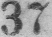37
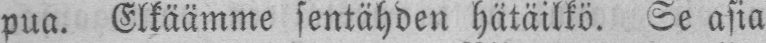pua. Elkäämme sentähden hätäilkö. Se asia
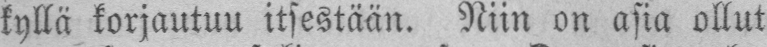kyllä korjautuu itsestään. Niin on asia ollut
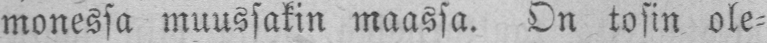monessa muussakin maassa. On tosin ole-
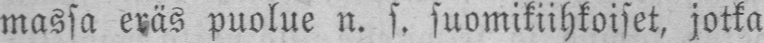massa eräs puolue n. s. suomikiihkoiset, jotka
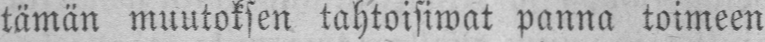tämän muutoksen tahtoisiwat panna toimeen
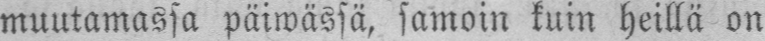muutamassa päiwässä, samoin kuin heillä on
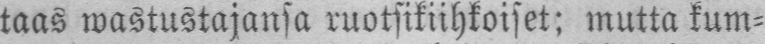taas wastustajansa ruotsikiihkoiset: mutta kum-
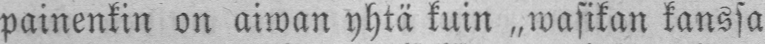painenkin on aiwän yhtä kuin „wasikan kanssa
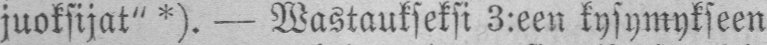juoksijat" *). — Wastaukseksi 3:een kysymykseen
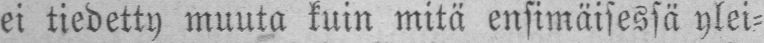ei tiedetty muuta kuin mitä ensimäisessä ylei-
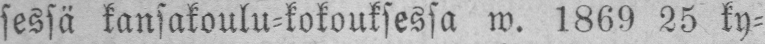sessä kansakoulu-kokouksessa w. 1869 25 ky-
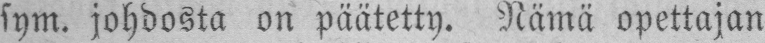sym. johdosta on päätetty. Nämä opettajan
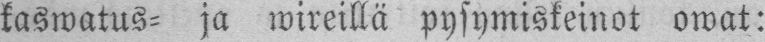kaswatus- ja wireillä pysymiskeinot owat:
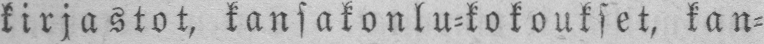kirjastot, kansakoulu-kokoukset, kan-
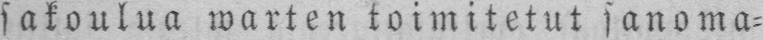sakoulua warten toimitetut sanoma-
